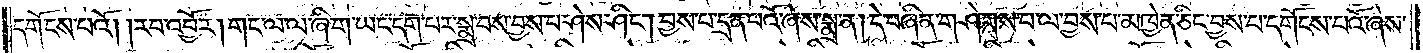དགོངས་པའོ། །རབ་འབྱོར། གང་ལ་ལ་ཞིག་ཡང་དག་པར་སྨྲ་བས་བྱས་པ་ཤེས་ཤིང༌། བྱས་པ་དྲན་པའོ་ཞེས་སྨྲ་ན། དེ་བཞིན་གཤེགས་པ་ལ་བྱས་པ་མཁྱེན་ཅིང་བྱས་པ་དགོངས་པའོ་ཞེས་
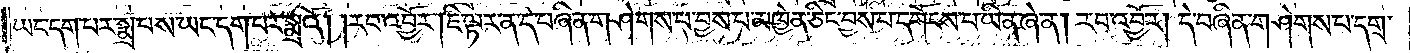ཡང་དག་པར་སྨྲ་བས་ཡང་དག་པར་སྨྲའོ། །རབ་འབྱོར། ཇི་ལྟར་ན་དེ་བཞིན་གཤེགས་པ་བྱས་པ་མཁྱེན་ཅིང་བྱས་པ་དགོངས་པ་ཡིན་ཞེ་ན། རབ་འབྱོར། དེ་བཞིན་གཤེགས་པ་དགྲ་
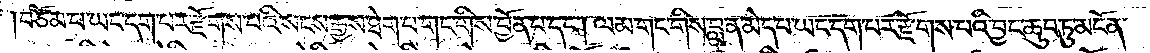བཅོམ་པ་ཡང་དག་པར་རྫོགས་པའི་སངས་རྒྱས་ཐེག་པ་གང་གིས་བྱོན་པ་དང༌། ལམ་གང་གིས་བླ་ན་མེད་པ་ཡང་དག་པར་རྫོགས་པའི་བྱང་ཆུབ་ཏུ་མངོན་
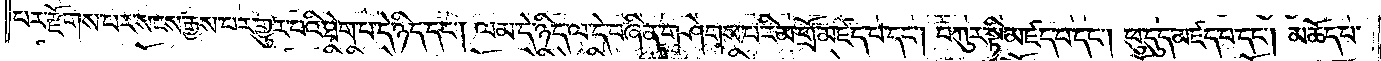པར་རྫོགས་པར་སངས་རྒྱས་པར་གྱུར་བའི་ཐེག་པ་དེ་ཉིད་དང༌། ལམ་དེ་ཉིད་ལ་དེ་བཞིན་གཤེགས་པ་རིམ་གྲོ་མཛད་པ་དང༌། བཀུར་སྟི་མཛད་པ་དང༌། ཕུ་དུད་མཛད་པ་དང༌། མཆོད་པ་
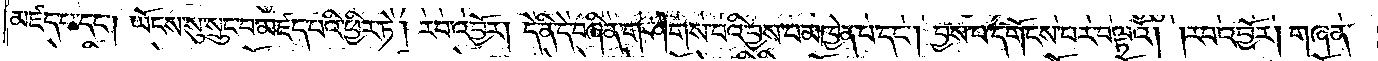མཛད་པ་དང༌། ཡོངས་སུ་སྲུང་བ་མཛད་པའི་ཕྱིར་ཏེ། རབ་འབྱོར། དེ་ནི་དེ་བཞིན་གཤེགས་པའི་བྱས་པ་མཁྱེན་པ་དང༌། བྱས་པ་དགོངས་པར་བལྟའོ། །རབ་འབྱོར། གཞན་
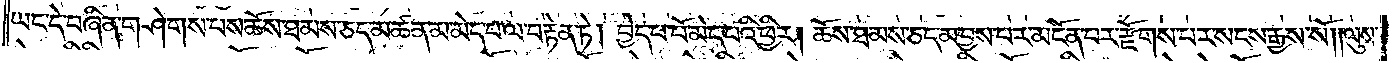ཡང་དེ་བཞིན་གཤེགས་པས་ཆོས་ཐམས་ཅད་མཚན་མ་མེད་པ་ལ་བརྟེན་ཏེ། བྱེད་པ་པོ་མེད་པའི་ཕྱིར། ཆོས་ཐམས་ཅད་མ་བྱས་པར་མངོན་པར་རྫོགས་པར་སངས་རྒྱས་སོ། ལུས་
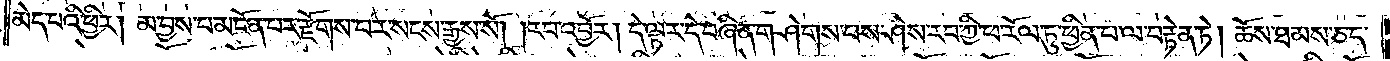མེད་པའི་ཕྱིར། མ་བྱས་པ་མངོན་པར་རྫོགས་པར་སངས་རྒྱས་སོ། །རབ་འབྱོར། དེ་ལྟར་དེ་བཞིན་གཤེགས་པས་ཤེས་རབ་ཀྱི་ཕ་རོལ་ཏུ་ཕྱིན་པ་ལ་བརྟེན་ཏེ། ཆོས་ཐམས་ཅད་
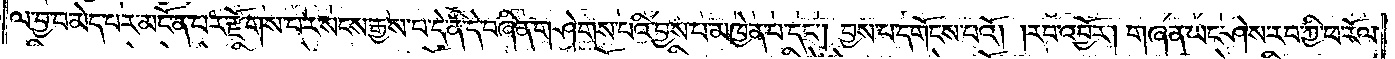ལ་བྱ་བ་མེད་པར་མངོན་པར་རྫོགས་པར་སངས་རྒྱས་པ་དེ་ནི་དེ་བཞིན་གཤེགས་པའི་བྱས་པ་མཁྱེན་པ་དང༌། བྱས་པ་དགོངས་པའོ། །རབ་འབྱོར། གཞན་ཡང་ཤེས་རབ་ཀྱི་ཕ་རོལ་
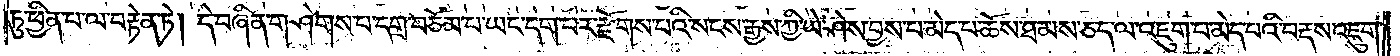ཏུ་ཕྱིན་པ་ལ་བརྟེན་ཏེ། དེ་བཞིན་གཤེགས་པ་དགྲ་བཅོམ་པ་ཡང་དག་པར་རྫོགས་པའི་སངས་རྒྱས་ཀྱི་ཡེ་ཤེས་བྱས་པ་མེད་པ་ཆོས་ཐམས་ཅད་ལ་འཇུག་པ་མེད་པའི་བརྡས་འཇུག་
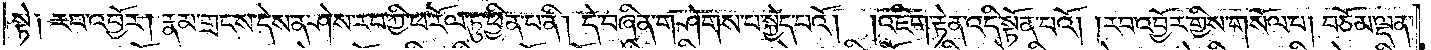སྟེ༑ རབ་འབྱོར། རྣམ་གྲངས་དེས་ན། ཤེས་རབ་ཀྱི་ཕ་རོལ་ཏུ་ཕྱིན་པ་ནི། དེ་བཞིན་གཤེགས་པ་སྐྱེད་པའོ། །འཇིག་རྟེན་འདི་སྟོན་པའོ། །རབ་འབྱོར་གྱིས་གསོལ་པ། བཅོམ་ལྡན་
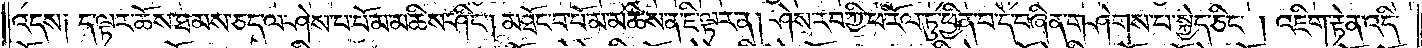འདས༑ ད་ལྟར་ཆོས་ཐམས་ཅད་ལ་ཤེས་པ་པོ་མ་མཆིས་ཤིང༌། མཐོང་བ་པོ་མ་མཆིས་ན་ཇི་ལྟར་ན། ཤེས་རབ་ཀྱི་ཕ་རོལ་ཏུ་ཕྱིན་པ་དེ་བཞིན་གཤེགས་པ་བསྐྱེད་ཅིང༌། འཇིག་རྟེན་འདི་
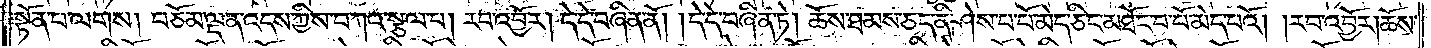སྟོན་པ་ལགས། བཅོམ་ལྡན་འདས་ཀྱིས་བཀའ་སྩལ་པ། རབ་འབྱོར། དེ་དེ་བཞིན་ནོ། །དེ་དེ་བཞིན་ཏེ། ཆོས་ཐམས་ཅད་ནི་ཤེས་པ་པོ་མེད་ཅིང་མཐོང་བ་པོ་མེད་པའོ། །རབ་འབྱོར། ཆོས་
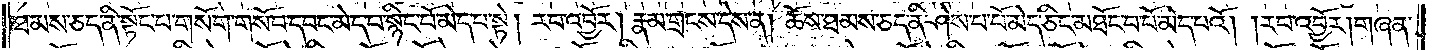ཐམས་ཅད་ནི་སྟོང་པ་གསོག་གསོབ་དབང་མེད་པ་སྙིང་པོ་མེད་པ་སྟེ། རབ་འབྱོར། རྣམ་གྲངས་དེས་ན། ཆོས་ཐམས་ཅད་ནི་ཤེས་པ་པོ་མེད་ཅིང་མཐོང་བ་པོ་མེད་པའོ། །རབ་འབྱོར། གཞན་
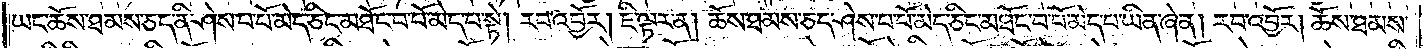ཡང་ཆོས་ཐམས་ཅད་ནི་ཤེས་པ་པོ་མེད་ཅིང་མཐོང་བ་པོ་མེད་པ་སྟེ། རབ་འབྱོར། ཇི་ལྟར་ན། ཆོས་ཐམས་ཅད་ཤེས་པ་པོ་མེད་ཅིང་མཐོང་བ་པོ་མེད་པ་ཡིན་ཞེ་ན། རབ་འབྱོར། ཆོས་ཐམས་
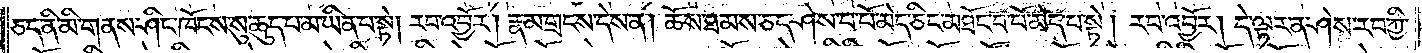ཅད་ནི་མི་གནས་ཤིང་ཁོངས་སུ་ཆུད་པ་མ་ཡིན་པ་སྟེ། རབ་འབྱོར། རྣམ་གྲངས་དེས་ན། ཆོས་ཐམས་ཅད་ཤེས་པ་པོ་མེད་ཅིང་མཐོང་བ་པོ་མེད་པ་སྟེ། རབ་འབྱོར། དེ་ལྟར་ན་ཤེས་རབ་ཀྱི་
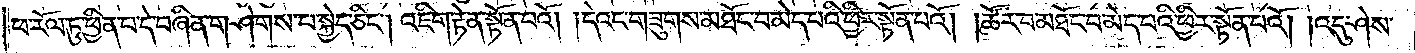ཕ་རོལ་ཏུ་ཕྱིན་པ་དེ་བཞིན་གཤེགས་པ་སྐྱེད་ཅིང་འཇིག་རྟེན་སྟོན་པའོ། །དེའང་གཟུགས་མཐོང་བ་མེད་པའི་ཕྱིར་སྟོན་པའོ། །ཚོར་བ་མཐོང་བ་མེད་པའི་ཕྱིར་སྟོན་པའོ། །འདུ་ཤེས་
